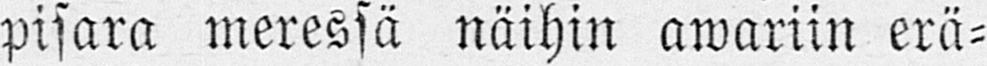pisara meressä näihin awariin erä-
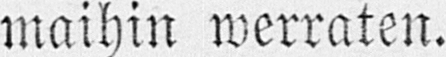maihin werraten.
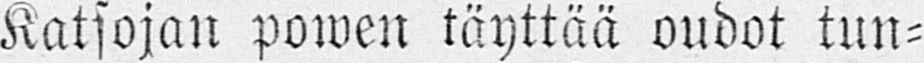Katsojan powen täyttää oudot tun-
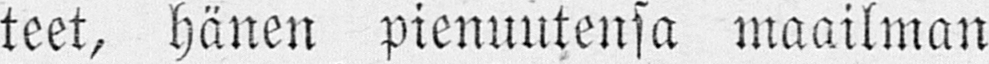teet, hänen pienuutensa maailman
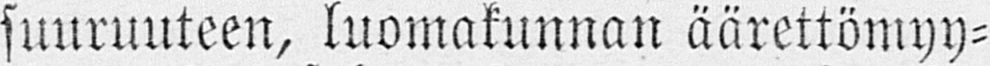suuruuteen, luomakunnan äärettömyy-
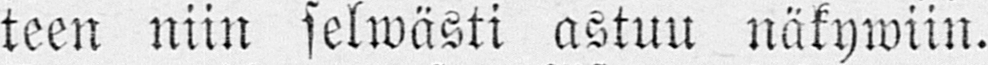teen niin selwästi astuu näkywiin.
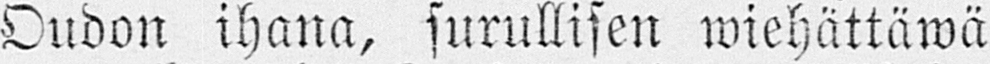Oudon ihana, surullisen wiehättäwä
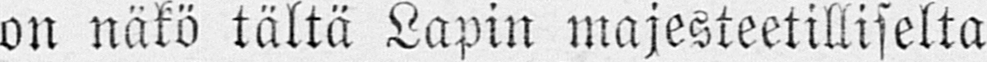on näkö tältä Lapin majesteetilliselta
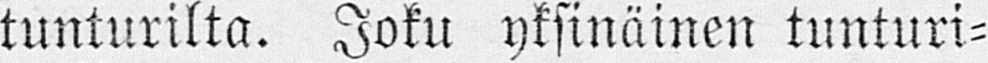tunturilta. Joku yksinäinen tunturi-
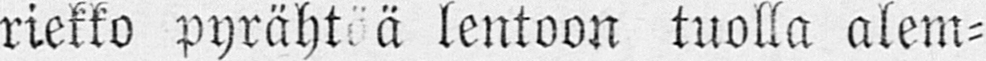riekko pyrähtää lentoon tuolla alem-
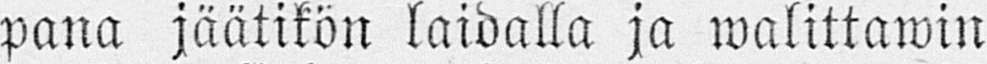pana jäätikön laidalla ja walittawin
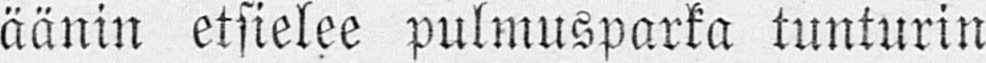äänin etsielee pulmusparka tunturin
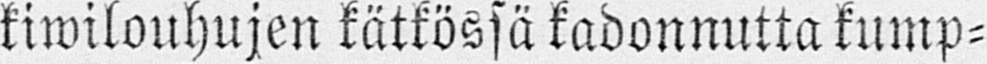kiwilouhujen kätkössä kadonnutta kump-
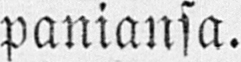paniansa.
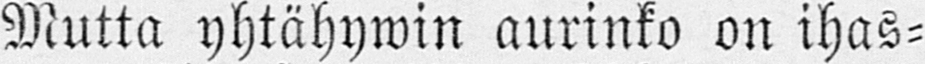Mutta yhtähywin aurinko on ihas-
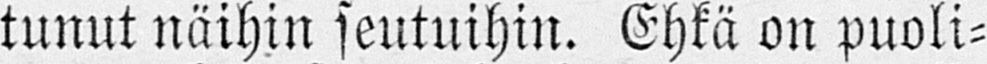tunut näihin seutuihin. Ehkä on puoli-
